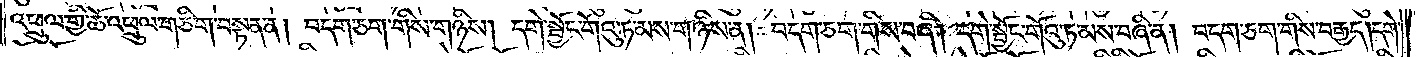འཕྲུལ་གྱི་ཆོ་འཕྲུལ་གཅིག་བསྟན་ན། བདག་ཅག་གིས་གཉིས། དགེ་སྦྱོང་གོའུ་ཏ་མས་གཉིས་ན། བདག་ཅག་གིས་བཞི། དགེ་སྦྱོང་གོའུ་ཏ་མས་བཞི་ན། བདག་ཅག་གིས་བརྒྱད། དགེ་
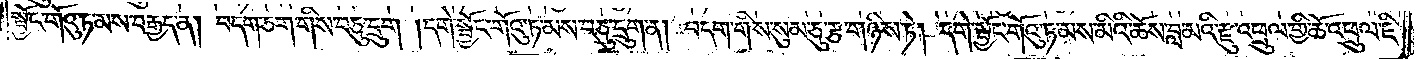སྦྱོང་གོའུ་ཏ་མས་བརྒྱད་ན། བདག་ཅག་གིས་བཅུ་དྲུག །དགེ་སྦྱོང་གོའུ་ཏ་མས་བཅུ་དྲུག་ན། བདག་གིས་སུམ་ཅུ་རྩ་གཉིས་ཏེ། དགེ་སྦྱོང་གོའུ་ཏ་མས་མིའི་ཆོས་བླ་མའི་རྫུ་འཕྲུལ་གྱི་ཆོ་འཕྲུལ་ཇི་
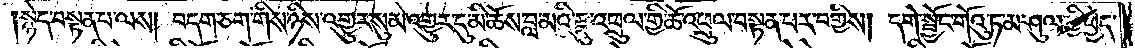སྙེད་བསྟན་པ་ལས། བདག་ཅག་གིས་ཉིས་འགྱུར་སུམ་འགྱུར་དུ་མི་ཆོས་བླ་མའི་རྫུ་འཕྲུལ་གྱི་ཆོ་འཕྲུལ་བསྟན་པར་བགྱིས། དགེ་སྦྱོང་གོའུ་ཏ་མ་ཤུལ་གྱི་ཕྱེད་
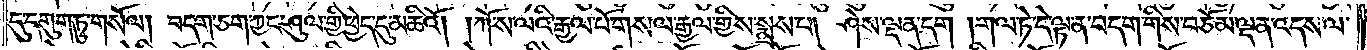དུ་དགུག་ཏུ་གསོལ། བདག་ཅག་ཀྱང་ཤུལ་གྱི་ཕྱེད་དུ་མཆིའོ། །ཀོ་ས་ལའི་རྒྱལ་པོ་གསལ་རྒྱལ་གྱིས་སྨྲས་པ། ཤེས་ལྡན་དག །གལ་ཏེ་དེ་ལྟ་ན་བདག་གིས་བཅོམ་ལྡན་འདས་ལ་
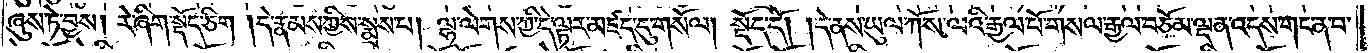ཞུས་ཏེ་བྱས། རེ་ཞིག་སྡོད་ཅིག །དེ་རྣམས་ཀྱིས་སྨྲས་པ། ལྷ་ལེགས་ཀྱི་དེ་ལྟར་མཛད་དུ་གསོལ། སྡོད་དོ། །དེ་ནས་ཡུལ་ཀོ་ས་ལའི་རྒྱལ་པོ་གསལ་རྒྱལ་བཅོམ་ལྡན་འདས་གང་ན་བ་
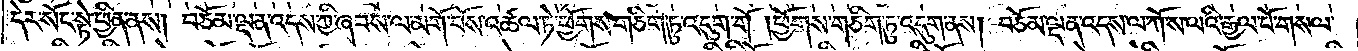དེར་སོང་སྟེ་ཕྱིན་ནས། བཅོམ་ལྡན་འདས་ཀྱི་ཞབས་ལ་མགོ་བོས་འཚལ་ཏེ་ཕྱོགས་གཅིག་ཏུ་འདུག་གོ །ཕྱོགས་གཅིག་ཏུ་འདུག་ནས། བཅོམ་ལྡན་འདས་ལ་ཀོ་ས་ལའི་རྒྱལ་པོ་གསལ་
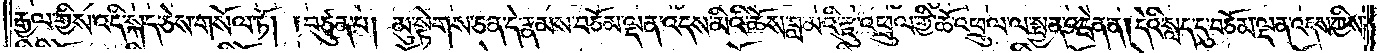རྒྱལ་གྱིས་འདི་སྐད་ཅེས་གསོལ་ཏོ། །བཙུན་པ། མུ་སྟེགས་ཅན་དེ་རྣམས་བཅོམ་ལྡན་འདས་མིའི་ཆོས་བླ་མའི་རྫུ་འཕྲུལ་གྱི་ཆོ་འཕྲུལ་ལ་སྤྱན་འདྲེན་ན། དེའི་སླད་དུ་བཅོམ་ལྡན་འདས་ཀྱིས་
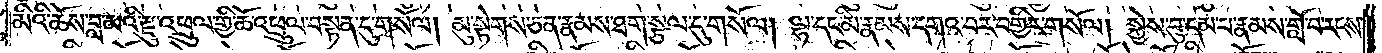མིའི་ཆོས་བླ་མའི་རྫུ་འཕྲུལ་གྱི་ཆོ་འཕྲུལ་བསྟན་དུ་གསོལ། མུ་སྟེགས་ཅན་རྣམས་ཐག་སྩལ་དུ་གསོལ། ལྷ་དང་མི་རྣམས་དགའ་བར་བགྱིར་གསོལ། སྐྱེས་བུ་དམ་པ་རྣམས་གློ་བ་རངས་
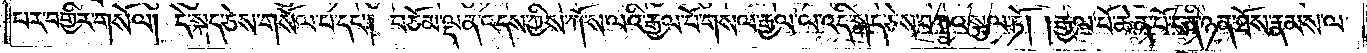པར་བགྱིར་གསོལ། དེ་སྐད་ཅེས་གསོལ་པ་དང༌། བཅོམ་ལྡན་འདས་ཀྱིས་ཀོ་ས་ལའི་རྒྱལ་པོ་གསལ་རྒྱལ་ལ་འདི་སྐད་ཅེས་བཀའ་སྩལ་ཏོ། །རྒྱལ་པོ་ཆེན་པོ་ང་ནི་ཉན་ཐོས་རྣམས་ལ་
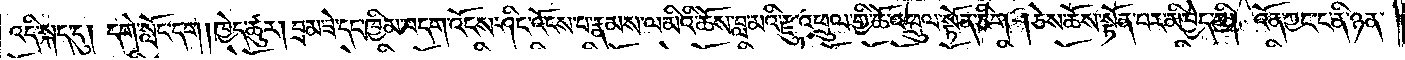འདི་སྐད་དུ། དགེ་སློང་དག །ཁྱེད་ཚུར། བྲམ་ཟེ་དང་ཁྱིམ་བདག་འོངས་ཤིང་འོངས་པ་རྣམས་ལ་མིའི་ཆོས་བླ་མའི་རྫུ་འཕྲུལ་གྱི་ཆོ་འཕྲུལ་སྟོན་ཅིག །ཅེས་ཆོས་སྟོན་པར་མི་བྱེད་ཀྱི། འོན་ཀྱང་ང་ནི་ཉན་
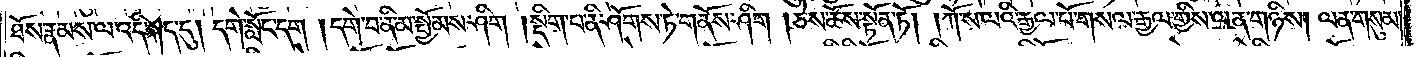ཐོས་རྣམས་ལ་འདི་སྐད་དུ། དགེ་སློང་དག །དགེ་བ་ནི་མ་སྤྱོམས་ཤིག །སྡིག་པ་ནི་ཤོགས་ཏེ་གནོས་ཤིག །ཅེས་ཆོས་སྟོན་ཏོ། །ཀོ་ས་ལའི་རྒྱལ་པོ་གསལ་རྒྱལ་གྱིས་ལན་གཉིས། ལན་གསུམ་
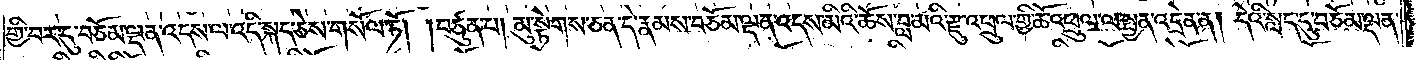གྱི་བར་དུ་བཅོམ་ལྡན་འདས་ལ་འདི་སྐད་ཅེས་གསོལ་ཏོ། །བཙུན་པ། མུ་སྟེགས་ཅན་དེ་རྣམས་བཅོམ་ལྡན་འདས་མིའི་ཆོས་བླ་མའི་རྫུ་འཕྲུལ་གྱི་ཆོ་འཕྲུལ་ལ་སྤྱན་འདྲེན་ན། དེའི་སླད་དུ་བཅོམ་ལྡན་
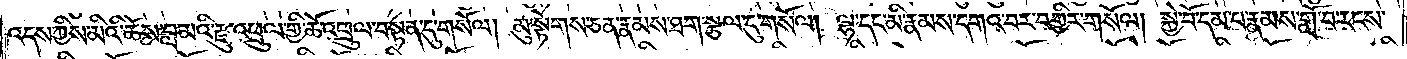འདས་ཀྱིས་མིའི་ཆོས་བླ་མའི་རྫུ་འཕྲུལ་གྱི་ཆོ་འཕྲུལ་བསྟན་དུ་གསོལ། མུ་སྟེགས་ཅན་རྣམས་ཐག་སྩལ་དུ་གསོལ། ལྷ་དང་མི་རྣམས་དགའ་བར་བགྱིར་གསོལ། སྐྱེ་བོ་དམ་པ་རྣམས་གློ་བ་རངས་
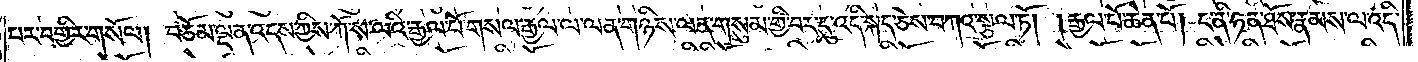པར་བགྱིར་གསོལ། བཅོམ་ལྡན་འདས་ཀྱིས་ཀོ་ས་ལའི་རྒྱལ་པོ་གསལ་རྒྱལ་ལ་ལན་གཉིས་ལན་གསུམ་གྱི་བར་དུ་འདི་སྐད་ཅེས་བཀའ་སྩལ་ཏོ། །རྒྱལ་པོ་ཆེན་པོ། ང་ནི་ཉན་ཐོས་རྣམས་ལ་འདི་
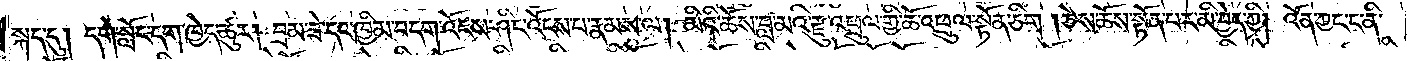སྐད་དུ། དགེ་སློང་དག་ཁྱེད་ཚུར། བྲམ་ཟེ་དང་ཁྱིམ་བདག་འོངས་ཤིང་འོངས་པ་རྣམས་ལ། མིའི་ཆོས་བླ་མའི་རྫུ་འཕྲུལ་གྱི་ཆོ་འཕྲུལ་སྟོན་ཅིག །ཅེས་ཆོས་སྟོན་པར་མི་བྱེད་ཀྱི། འོན་ཀྱང་ང་ནི་
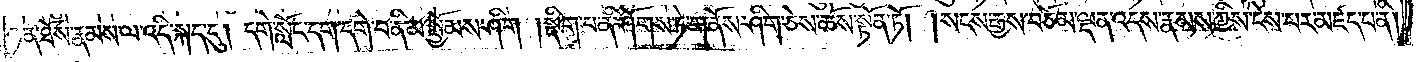ཉན་ཐོས་རྣམས་ལ་འདི་སྐད་དུ། དགེ་སློང་དག་དགེ་བ་ནི་མ་སྤྱོམས་ཤིག །སྡིག་པ་ནི་ཤོགས་ཏེ་གནོས་ཤིག་ཅེས་ཆོས་སྟོན་ཏོ། །སངས་རྒྱས་བཅོམ་ལྡན་འདས་རྣམས་ཀྱིས་ངེས་པར་མཛད་པ་ནི།
